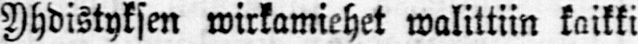Yhdistyksen wirkamiehet walittiin kaikki
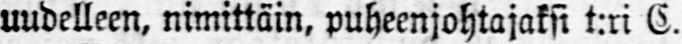uudelleen, nimittäin, puheenjohtajaksi t:ri C.
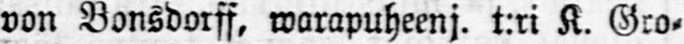von Bonsdorff, warapuheenj. t:ri K. Gro-
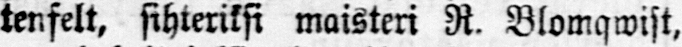tenfelt, sihteriksi maisteri R. Blomqwist,
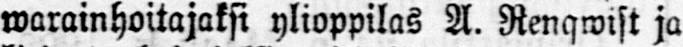warainhoitajaksi ylioppilas A. Renqwist ja
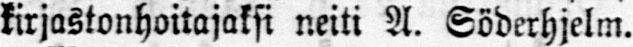kirjastonhoitajaksi neiti A. Söderhjelm.
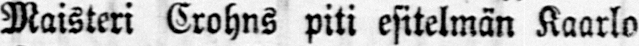Maisteri Crohns piti esitelmän Kaarlo
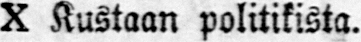X Kustaan politikista.
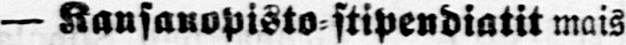— Kansanopisto- stipendiatit mais-
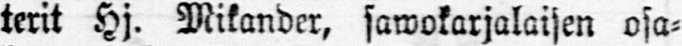terit Hj. Mikander, sawokarjalaisen osa-
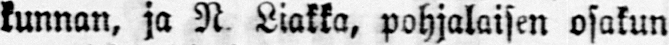kunnan, ja N Liakka, pohjalaisen osakun-
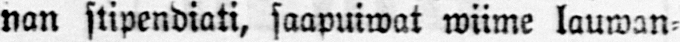nan stipendiati, saapuiwat wiime lauwan-
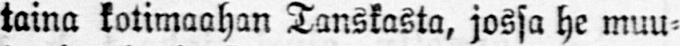taina kotimaahan Tanskasta, jossa he muu-
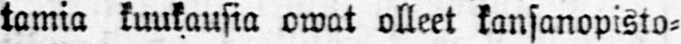tamia kuukausia owat olleet kansanopisto-
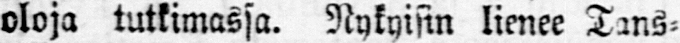oloja tutkimassa. Nykyisin lienee Tans-
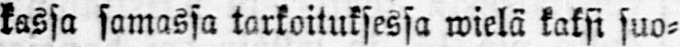kassa samassa tarkoituksessa wielä kaksi suo-
